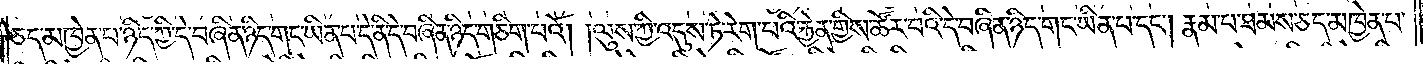ཅད་མཁྱེན་པ་ཉིད་ཀྱི་དེ་བཞིན་ཉིད་གང་ཡིན་པ་དེ་ནི་དེ་བཞིན་ཉིད་གཅིག་པའོ། །ལུས་ཀྱི་འདུས་ཏེ་རེག་པའི་རྐྱེན་གྱིས་ཚོར་བའི་དེ་བཞིན་ཉིད་གང་ཡིན་པ་དང༌། རྣམ་པ་ཐམས་ཅད་མཁྱེན་པ་
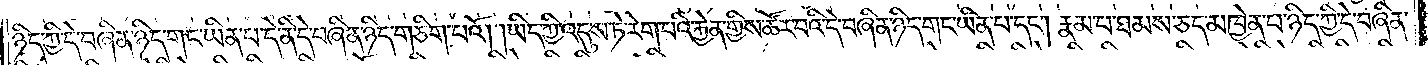ཉིད་ཀྱི་དེ་བཞིན་ཉིད་གང་ཡིན་པ་དེ་ནི་དེ་བཞིན་ཉིད་གཅིག་པའོ། །ཡིད་ཀྱི་འདུས་ཏེ་རེག་པའི་རྐྱེན་གྱིས་ཚོར་བའི་དེ་བཞིན་ཉིད་གང་ཡིན་པ་དང༌། རྣམ་པ་ཐམས་ཅད་མཁྱེན་པ་ཉིད་ཀྱི་དེ་བཞིན་
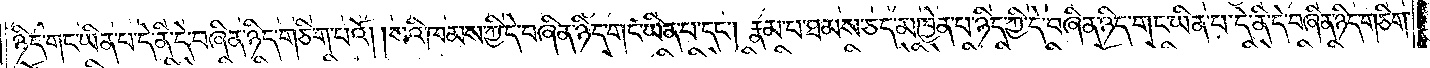ཉིད་གང་ཡིན་པ་དེ་ནི་དེ་བཞིན་ཉིད་གཅིག་པའོ། །སའི་ཁམས་ཀྱི་དེ་བཞིན་ཉིད་གང་ཡིན་པ་དང༌། རྣམ་པ་ཐམས་ཅད་མཁྱེན་པ་ཉིད་ཀྱི་དེ་བཞིན་ཉིད་གང་ཡིན་པ་དེ་ནི་དེ་བཞིན་ཉིད་གཅིག་
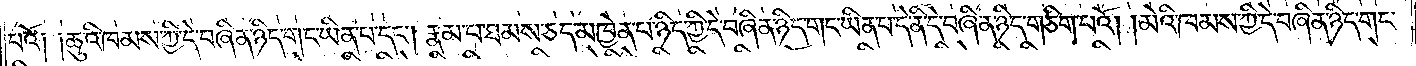པའོ༑ ༑ཆུའི་ཁམས་ཀྱི་དེ་བཞིན་ཉིད་གང་ཡིན་པ་དང༌། རྣམ་པ་ཐམས་ཅད་མཁྱེན་པ་ཉིད་ཀྱི་དེ་བཞིན་ཉིད་གང་ཡིན་པ་དེ་ནི་དེ་བཞིན་ཉིད་གཅིག་པའོ། །མེའི་ཁམས་ཀྱི་དེ་བཞིན་ཉིད་གང་
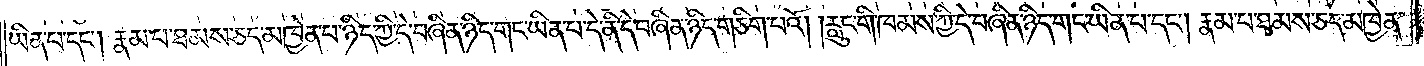ཡིན་པ་དང༌། རྣམ་པ་ཐམས་ཅད་མཁྱེན་པ་ཉིད་ཀྱི་དེ་བཞིན་ཉིད་གང་ཡིན་པ་དེ་ནི་དེ་བཞིན་ཉིད་གཅིག་པའོ། །རླུང་གི་ཁམས་ཀྱི་དེ་བཞིན་ཉིད་གང་ཡིན་པ་དང༌། རྣམ་པ་ཐམས་ཅད་མཁྱེན་
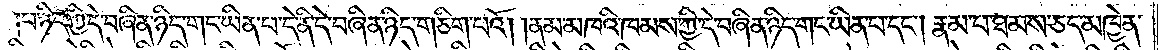པ་ཉིད་ཀྱི་དེ་བཞིན་ཉིད་གང་ཡིན་པ་དེ་ནི་དེ་བཞིན་ཉིད་གཅིག་པའོ། །ནམ་མཁའི་ཁམས་ཀྱི་དེ་བཞིན་ཉིད་གང་ཡིན་པ་དང༌། རྣམ་པ་ཐམས་ཅད་མཁྱེན་
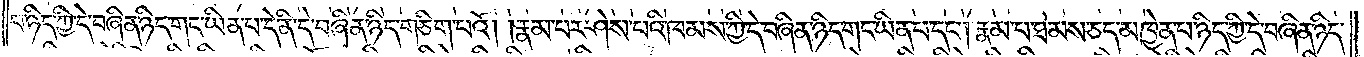པ་ཉིད་ཀྱི་དེ་བཞིན་ཉིད་གང་ཡིན་པ་དེ་ནི་དེ་བཞིན་ཉིད་གཅིག་པའོ། །རྣམ་པར་ཤེས་པའི་ཁམས་ཀྱི་དེ་བཞིན་ཉིད་གང་ཡིན་པ་དང༌། རྣམ་པ་ཐམས་ཅད་མཁྱེན་པ་ཉིད་ཀྱི་དེ་བཞིན་ཉིད་
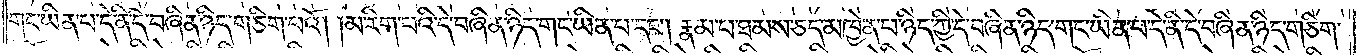གང་ཡིན་པ་དེ་ནི་དེ་བཞིན་ཉིད་གཅིག་པའོ། །མ་རིག་པའི་དེ་བཞིན་ཉིད་གང་ཡིན་པ་དང༌། རྣམ་པ་ཐམས་ཅད་མཁྱེན་པ་ཉིད་ཀྱི་དེ་བཞིན་ཉིད་གང་ཡིན་པ་དེ་ནི་དེ་བཞིན་ཉིད་གཅིག་
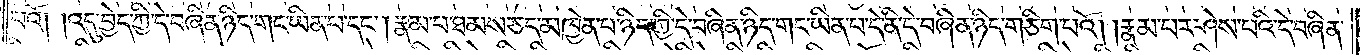པའོ། །འདུ་བྱེད་ཀྱི་དེ་བཞིན་ཉིད་གང་ཡིན་པ་དང༌། རྣམ་པ་ཐམས་ཅད་མཁྱེན་པ་ཉིད་ཀྱི་དེ་བཞིན་ཉིད་གང་ཡིན་པ་དེ་ནི་དེ་བཞིན་ཉིད་གཅིག་པའོ། །རྣམ་པར་ཤེས་པའི་དེ་བཞིན་
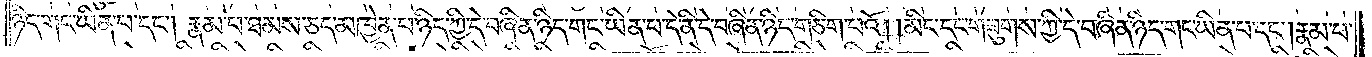ཉིད་གང་ཡིན་པ་དང༌། རྣམ་པ་ཐམས་ཅད་མཁྱེན་པ་ཉིད་ཀྱི་དེ་བཞིན་ཉིད་གང་ཡིན་པ་དེ་ནི་དེ་བཞིན་ཉིད་གཅིག་པའོ། །མིང་དང་གཟུགས་ཀྱི་དེ་བཞིན་ཉིད་གང་ཡིན་པ་དང༌། རྣམ་པ་
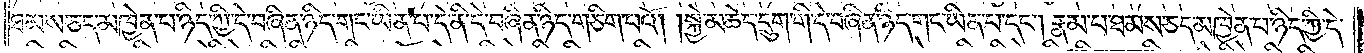ཐམས་ཅད་མཁྱེན་པ་ཉིད་ཀྱི་དེ་བཞིན་ཉིད་གང་ཡིན་པ་དེ་ནི་དེ་བཞིན་ཉིད་གཅིག་པའོ། །སྐྱེ་མཆེད་དྲུག་གི་དེ་བཞིན་ཉིད་གང་ཡིན་པ་དང༌། རྣམ་པ་ཐམས་ཅད་མཁྱེན་པ་ཉིད་ཀྱི་དེ་
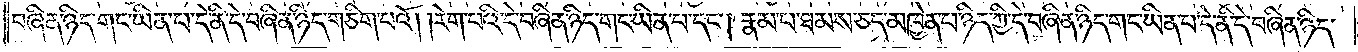བཞིན་ཉིད་གང་ཡིན་པ་དེ་ནི་དེ་བཞིན་ཉིད་གཅིག་པའོ། །རེག་པའི་དེ་བཞིན་ཉིད་གང་ཡིན་པ་དང༌། རྣམ་པ་ཐམས་ཅད་མཁྱེན་པ་ཉིད་ཀྱི་དེ་བཞིན་ཉིད་གང་ཡིན་པ་དེ་ནི་དེ་བཞིན་ཉིད་
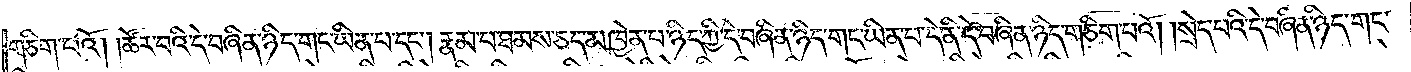གཅིག་པའོ། །ཚོར་བའི་དེ་བཞིན་ཉིད་གང་ཡིན་པ་དང༌། རྣམ་པ་ཐམས་ཅད་མཁྱེན་པ་ཉིད་ཀྱི་དེ་བཞིན་ཉིད་གང་ཡིན་པ་དེ་ནི་དེ་བཞིན་ཉིད་གཅིག་པའོ། །སྲེད་པའི་དེ་བཞིན་ཉིད་གང་
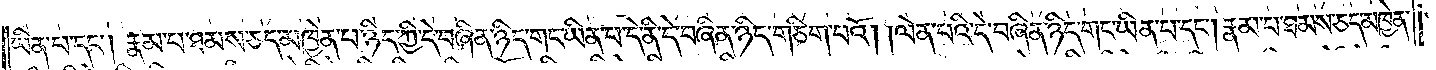ཡིན་པ་དང༌། རྣམ་པ་ཐམས་ཅད་མཁྱེན་པ་ཉིད་ཀྱི་དེ་བཞིན་ཉིད་གང་ཡིན་པ་དེ་ནི་དེ་བཞིན་ཉིད་གཅིག་པའོ། །ལེན་པའི་དེ་བཞིན་ཉིད་གང་ཡིན་པ་དང༌། རྣམ་པ་ཐམས་ཅད་མཁྱེན་
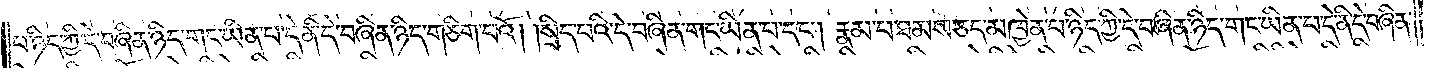པ་ཉིད་ཀྱི་དེ་བཞིན་ཉིད་གང་ཡིན་པ་དེ་ནི་དེ་བཞིན་ཉིད་གཅིག་པའོ། །སྲིད་པའི་དེ་བཞིན་ཉིད་གང་ཡིན་པ་དང༌། རྣམ་པ་ཐམས་ཅད་མཁྱེན་པ་ཉིད་ཀྱི་དེ་བཞིན་ཉིད་གང་ཡིན་པ་དེ་ནི་དེ་བཞིན་
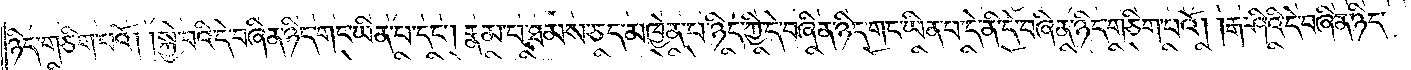ཉིད་གཅིག་པའོ། །སྐྱེ་བའི་དེ་བཞིན་ཉིད་གང་ཡིན་པ་དང༌། རྣམ་པ་ཐམས་ཅད་མཁྱེན་པ་ཉིད་ཀྱི་དེ་བཞིན་ཉིད་གང་ཡིན་པ་དེ་ནི་དེ་བཞིན་ཉིད་གཅིག་པའོ། །རྒ་ཤིའི་དེ་བཞིན་ཉིད་
